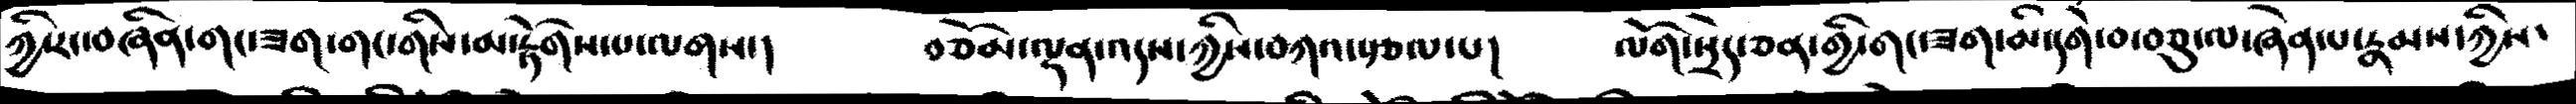ཀྱི་རང་བཞིན་གང་ཟག་གིས་མ་རྟོགས་པ་ལགས་།   བཅོམ་ལྡན་འདས་ཀྱིས་བཀའ་སྩལ་པ།  ལོག་སྲེད་ཅན་གྱི་གང་ཟག་མེ་དགེ་བ་བཅུ་ལ་ཞེན་པ་རྣམས་ཀྱིས་
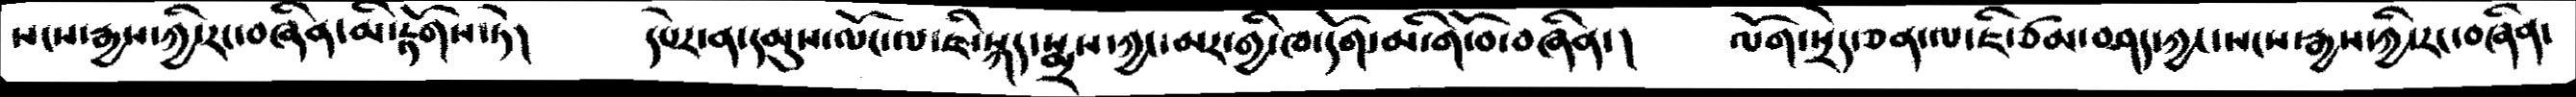སངས་རྒྱས་ཀྱི་རང་བཞིན་མི་རྟོགས་ཏེ།     དཔེར་ན་དམུས་ལོང་ལ་ཇི་སྐད་སྨྲས་ཀྱང་མར་གྱི་ཁ་དོག་མདགི་བོ་བཞིན་།    ལོག་སྲེད་ཅན་ལ་ཇི་ཙམ་བཤད་ཀྱང་སངས་རྒྱས་ཀྱི་རང་བཞིན་
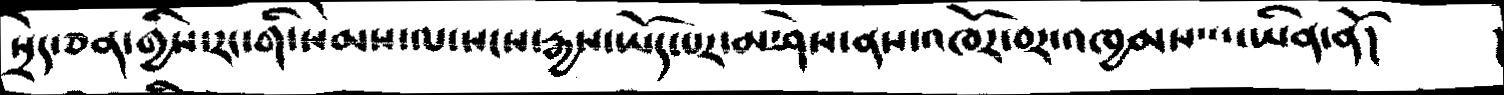སྲེད་ཅན་གྱིས་རང་གི་སེམས་ལ་སངས་རྒྱས་ཡོད་པར་མ་ཤེས་ནས་འཁོར་བར་འཁྱམས་པ་ཡིན་ནོ།   །
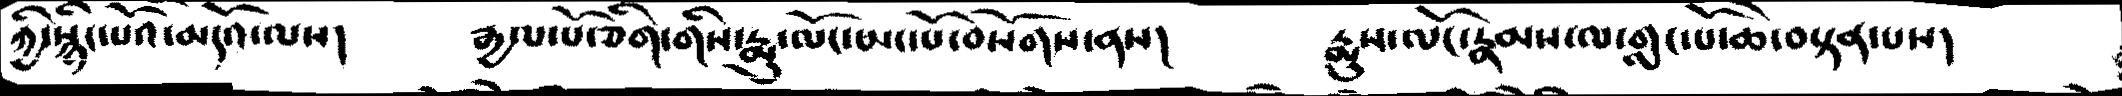ཀྱི་སྙིང་པོའ་མདོ་ལས།      རྒྱལ་པོ་ཅིག་གིས་རྨུག་ལོངས་མང་པོ་བསོགས་ནས།     རྨུས་ལོང་རྣམས་ལ་གླང་པོ་ཆེ་བསྟན་པས།
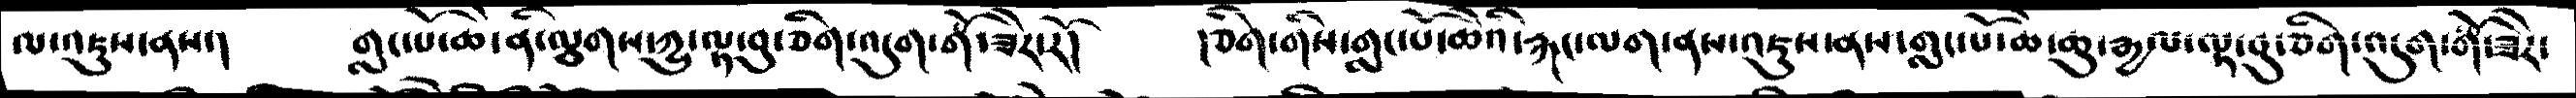ལ་འཇུས་ནས་།   གླང་པོ་ཆེ་ནི་ལྕགས་ཀྱུ་ལྟ་བུ་ཅིག་འདུག་གོ་ཟེར་རོ།   །ཅིག་གིས་གླང་པོ་ཆེའི་རྐང་ལག་ནས་འཇུས་ནས་གླང་པོ་ཆེ་ཆུ་རྒྱལ་ལྟ་བུ་ཅིག་འདུག་གོ་ཟེར་
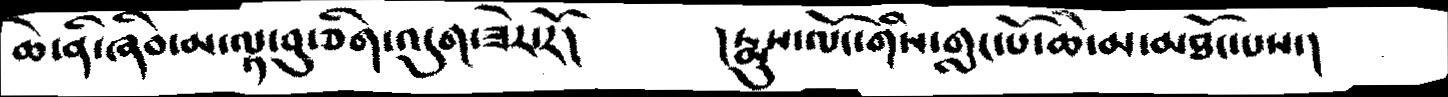ཆེ་ནི་ཞིབ་མ་ལྟ་བུ་ཅིག་འདུག་ཟེར་རོ།  །རྨུས་ལོང་གིས་གླང་པོ་ཆེ་མ་མཐོང་པས་།
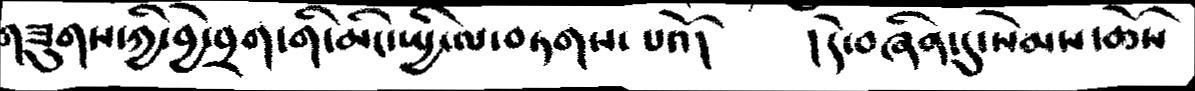གཟུགས་ཀྱི་བྱེ་བྲག་གི་མིང་སྤྱི་ལ་བཏགས་པའོ།  །དེ་བཞིན་དུ་སེམས་ཆོས
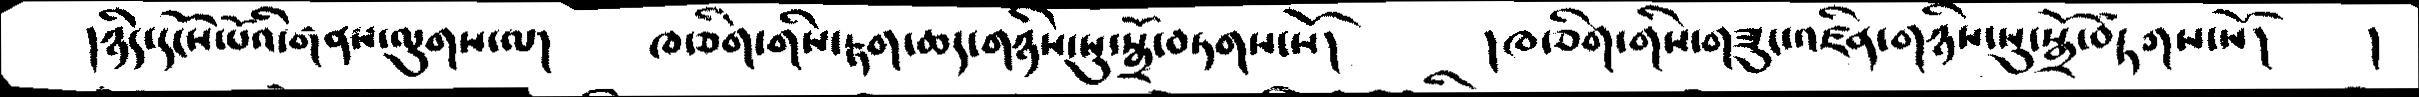།ཉིད་དངོས་པོའི་གནས་ལུགས་ལ།   ཁ་ཅིག་གིས་རྟག་ཆད་གཉིས་སུ་སྒྲོ་བཏགས་སོ།  །ཁ་ཅིག་གིས་གཟུང་འཛིན་གཉིས་སུ་སྒྲོ་བཏགས་སོ།   །
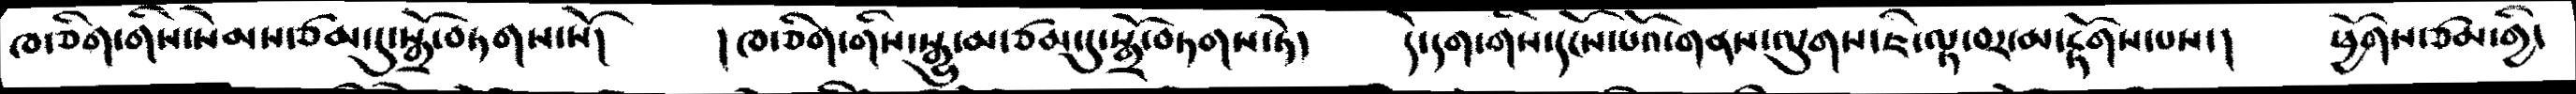ཁ་ཅིག་གིས་སེམས་ཙམ་དུ་སྒྲོ་བཏགས་སོ།   །ཁ་ཅིག་གིས་སྒྱུ་མ་ཙམ་དུ་སྒྲོ་བཏགས་ཏེ།  དེ་དག་གིས་དངོས་པོའ་གནས་ལུགས་ཇི་ལྟ་བར་མ་རྟོགས་པས་།  ཕྱོགས་ཙམ་གྱི་
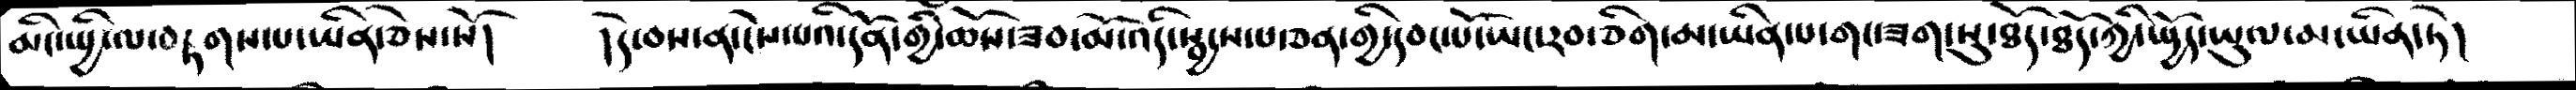མིང་སྤྱི་ལ་བཏགས་པ་ཡིན་ཅེས་སོ།   །དེ་བས་ན་ངེས་པའི་དོན་གྱི་ཆོས་ཟབ་མོ་འདི་སྦྱངས་པ་ཅན་གྱི་དབང་པོ་ཡང་རབ་ཅིག་མ་ཡིན་པ་གང་ཟག་སུ་ཐོད་ཐོད་ཀྱི་སྤྱོད་ཡུལ་མ་ཡིན་ཏེ།
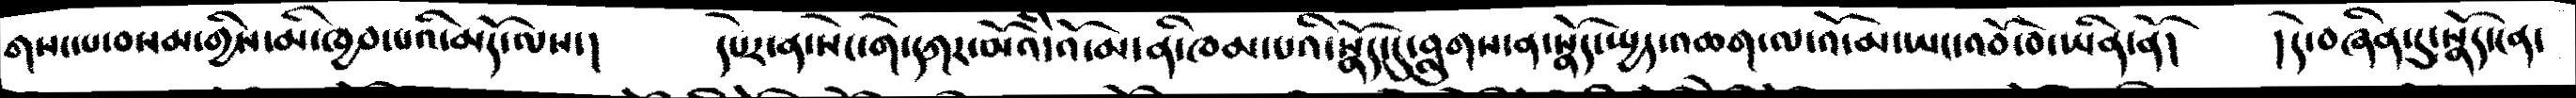གསང་པ་བསམ་གྱིས་མིཁྱབ་པའི་མདོ་ལས་།     དཔེར་ན་སེང་གེ་དཀར་མོའི་འོ་མ་ནི་ཁམ་པའི་སྣོད་དུ་བླུགས་ན་སྣོད་སྤྱད་འཆག་ལ་འོ་མ་ཡང་འབོ་བ་ཡིན་ནོ།  །དེ་བཞིན་དུ་སྣོད་ངན་
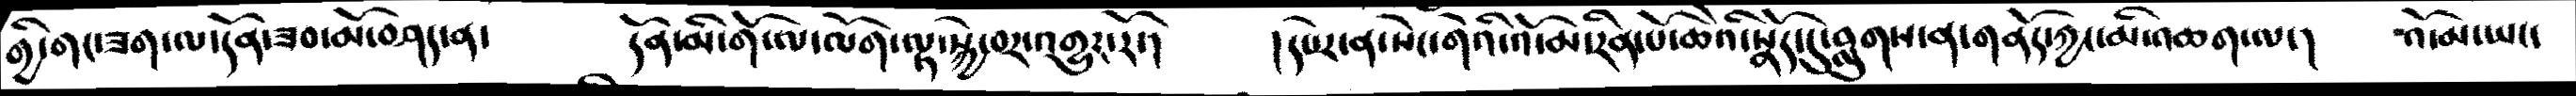གྱི་གང་ཟག་ལ་དོན་ཟབ་མོ་བཤད་ན་     དོན་མི་གོ་ལ་ལོག་ལྟ་སྐྱེ་བར་འགྱུར་རོ་།   །དཔེར་ན་སེང་གེའི་འོ་མ་རིན་པོ་ཆེའི་སྣོད་དུ་བླུགས་ན་གནོད་ཀྱང་མི་འཆག་ལ་།  འོ་མ་ཡང་
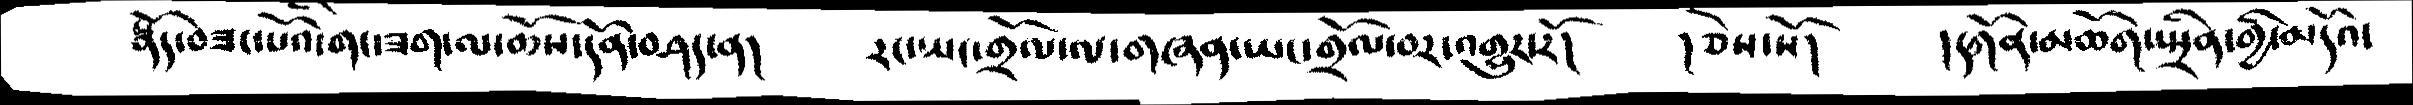སྣོད་བཟང་པོའི་གང་ཟག་ལ་ཆོས་དོན་བཤད་ན།     རང་ཡང་གྲོལ་ལ་གཞན་ཡང་གྲོལ་བར་འགྱུར་རོ།    །ཅེས་སོ།    །དཀོན་མཆོག་ཡྲིན་གྱིན་གྱི་མདོའ་
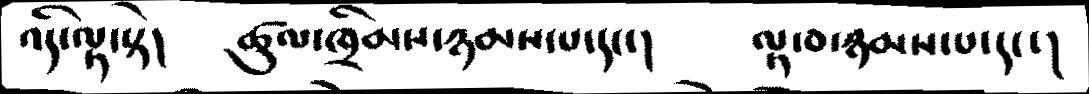འདི་ལྟ་སྟེ།    ཚུལ་ཁྲིམས་ཉམས་པ་དང་།     ལྟ་བ་ཉམས་པ་དང་།
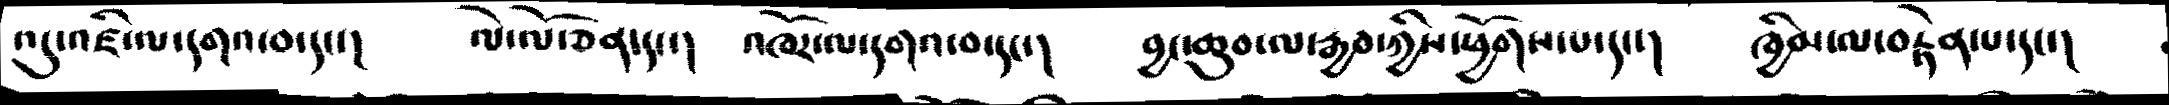འདུ་འཛི་ལ་དགའ་བ་དང་།   ལེ་ལོ་ཅན་དང་།   འཁོར་ལ་དགའ་བ་དང་།   བྱང་ཆུབ་ལ་རྒྱབ་ཀྱིས་ཕྱོགས་པ་དང་།  ཁྱིམ་ལ་བརྟེན་པ་དང་།
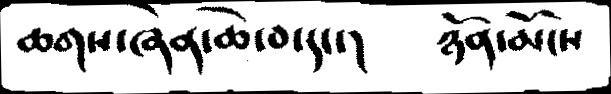ཆགས་ཞེན་ཆེ་བ་དང་།  ཉོན་མོངས
